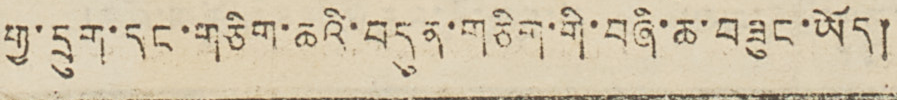གྱ་དྲུག་དང་གཅིག་ཆའི་བདུན་གཅིག་གི་བཞི་ཆ་བཟུང་ཡོད།
